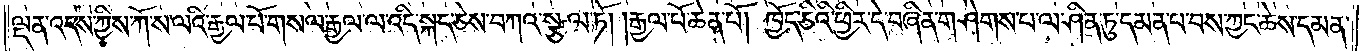ལྡན་འདས་ཀྱིས་ཀོ་ས་ལའི་རྒྱལ་པོ་གསལ་རྒྱལ་ལ་འདི་སྐད་ཅེས་བཀའ་སྩལ་ཏོ། །རྒྱལ་པོ་ཆེན་པོ། ཁྱོད་ཅིའི་ཕྱིར་དེ་བཞིན་གཤེགས་པ་ལ་ཤིན་ཏུ་དམན་པ་བས་ཀྱང་ཆེས་དམན་
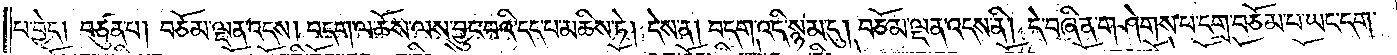པ་བྱེད། བཙུན་པ། བཅོམ་ལྡན་འདས། བདག་ལ་ཆོས་ལས་བྱུང་བའི་དད་པ་མཆིས་ཏེ། དེས་ན། བདག་འདི་སྙམ་དུ། བཅོམ་ལྡན་འདས་ནི། དེ་བཞིན་གཤེགས་པ་དགྲ་བཅོམ་པ་ཡང་དག་
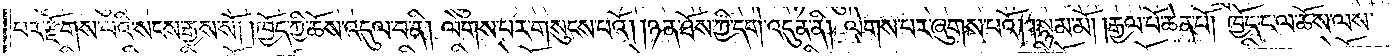པར་རྫོགས་པའི་སངས་རྒྱས་སོ། །ཁྱོད་ཀྱི་ཆོས་འདུལ་བ་ནི། ལེགས་པར་གསུངས་པའོ། །ཉན་ཐོས་ཀྱི་དགེ་འདུན་ནི། ལེགས་པར་ཞུགས་པའོ། །སྙམ་མོ། །རྒྱལ་པོ་ཆེན་པོ། ཁྱོད་ང་ལ་ཆོས་ལས་
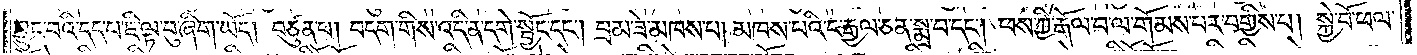བྱུང་བའི་དད་པ་ཇི་ལྟ་བུ་ཞིག་ཡོད། བཙུན་པ། བདག་གིས་འདི་ན་དགེ་སྦྱོང་དང༌། བྲམ་ཟེ་མཁས་པ། མཁས་པའི་ང་རྒྱལ་ཅན་སྨྲ་བ་དང༌། ཕས་ཀྱི་རྒོལ་བ་ལ་གོམས་པར་བགྱིས་པ། སྐྱེ་བོ་ཕལ་
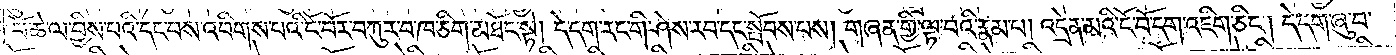པོ་ཆེ་ལ་བྱིས་པའི་དང་བས་འབིགས་པའི་ངོ་བོར་བཀུར་བ་ཁ་ཅིག་མཐོང་སྟེ། དེ་དག་རང་གི་ཤེས་རབ་དང་སྤོབས་པས། གཞན་གྱི་ལྟ་བའི་རྣམ་པ། འདྲེན་མའི་ངོ་བོ་དག་འཇིག་ཅིང༌། དེ་དག་ཞུ་བ་
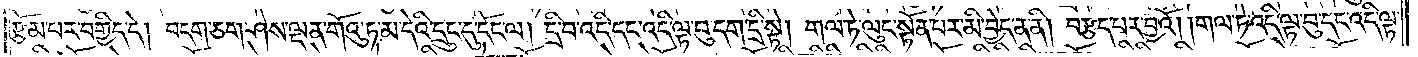རྩོམ་པར་བགྱིད་དེ། བདག་ཅག་ཤེས་ལྡན་གོའུ་ཏ་མ་དེའི་དྲུང་དུ་དོང་ལ། དྲི་བ་འདི་དང་འདི་ལྟ་བུ་དག་དྲི་སྟེ། གལ་ཏེ་ལུང་སྟོན་པར་མི་བྱེད་ན་ནི། བརྩད་པར་བྱའོ། །གལ་ཏེ་འདི་ལྟ་བུ་དང་འདི་ལྟ་
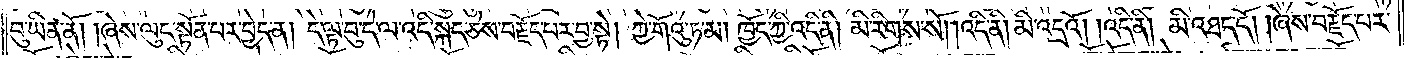བུ་ཡིན་ནོ། །ཞེས་ལུང་སྟོན་པར་བྱེད་ན། དེ་ལྟ་བུ་དེ་ལ་འདི་སྐད་ཅེས་བརྗོད་པར་བྱ་སྟེ། ཀྱེ་གོའུ་ཏ་མ། ཁྱོད་ཀྱི་འདི་ནི། མི་རིགས་སོ། །འདི་ནི། མི་འདྲའོ། །འདི་ནི། མི་འཐད་དོ། །ཞེས་བརྗོད་པར་
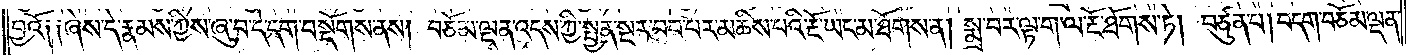བྱའོ༑ ༑ཞེས་དེ་རྣམས་ཀྱིས་ཞུ་བ་དེ་དག་བསྡོགས་ནས། བཅོམ་ལྡན་འདས་ཀྱི་སྤྱན་སྔར་བབ་པར་མཆིས་པའི་རྔོ་ཡང་མ་ཐོགས་ན། སྨྲ་བར་ལྟ་ག་ལ་རྔོ་ཐོགས་ཏེ། བཙུན་པ། བདག་བཅོམ་ལྡན་
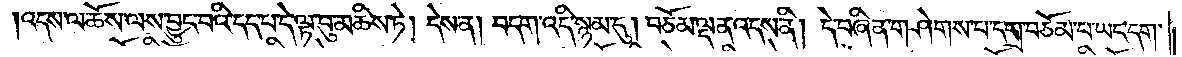འདས་ལ་ཆོས་ལས་བྱུང་བའི་དད་པ་དེ་ལྟ་བུ་མཆིས་ཏེ། དེས་ན། བདག་འདི་སྙམ་དུ། བཅོམ་ལྡན་འདས་ནི། དེ་བཞིན་གཤེགས་པ་དགྲ་བཅོམ་པ་ཡང་དག་
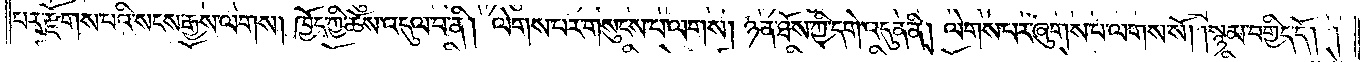པར་རྫོགས་པའི་སངས་རྒྱས་ལགས། ཁྱོད་ཀྱི་ཆོས་འདུལ་བ་ནི། ལེགས་པར་གསུངས་པ་ལགས། ཉན་ཐོས་ཀྱི་དགེ་འདུན་ནི། ལེགས་པར་ཞུགས་པ་ལགས་སོ། །སྙམ་བགྱིད་དོ། །
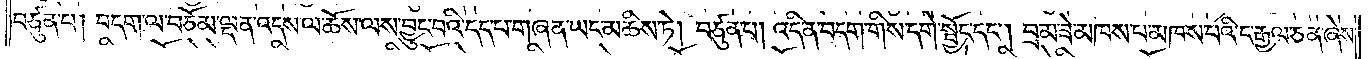བཙུན་པ། བདག་ལ་བཅོམ་ལྡན་འདས་ལ་ཆོས་ལས་བྱུང་བའི་དད་པ་གཞན་ཡང་མཆིས་ཏེ། བཙུན་པ། འདི་ན་བདག་གིས་དགེ་སྦྱོང་དང༌། བྲམ་ཟེ་མཁས་པ་མཁས་པའི་ང་རྒྱལ་ཅན་ཞེས་
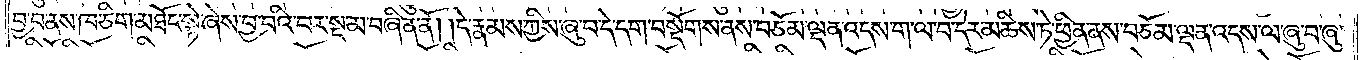བྱ་བ་ནས་ཁ་ཅིག་མཐོང་སྟེ་ཞེས་བྱ་བའི་བར་སྔ་མ་བཞིན་ནོ། །དེ་རྣམས་ཀྱིས་ཞུ་བ་དེ་དག་བསྡོགས་ནས་བཅོམ་ལྡན་འདས་ག་ལ་བ་དེར་མཆིས་ཏེ་ཕྱིན་ནས་བཅོམ་ལྡན་འདས་ལ་ཞུ་བ་ཞུ་
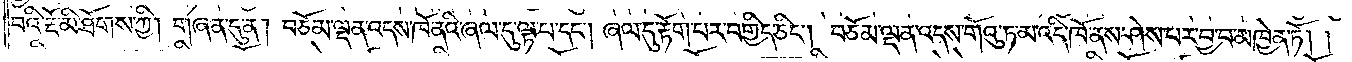བའི་རྔོ་མི་ཐོགས་ཀྱི། གཞན་དུ་ན། བཅོམ་ལྡན་འདས་ཁོ་ནའི་ཞལ་དུ་ལྟ་པ་དང༌། ཞལ་དུ་རྟོག་པར་བགྱིད་ཅིང༌། བཅོམ་ལྡན་འདས་གོའུ་ཏ་མ་འདི་ཁོ་ནས་ཤེས་པར་བྱ་བ་མཁྱེན་ཏོ། །
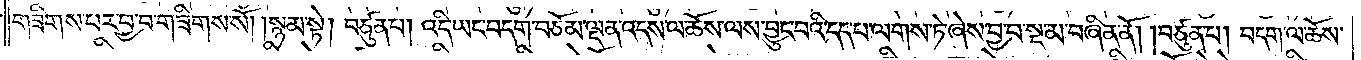གཟིགས་པར་བྱ་བ་གཟིགས་སོ། །སྙམ་སྟེ། བཙུན་པ། འདི་ཡང་བདག་བཅོམ་ལྡན་འདས་ལ་ཆོས་ལས་བྱུང་བའི་དད་པ་ལགས་ཏེ་ཞེས་བྱ་བ་སྔ་མ་བཞིན་ནོ། །བཙུན་པ། བདག་ལ་ཆོས་
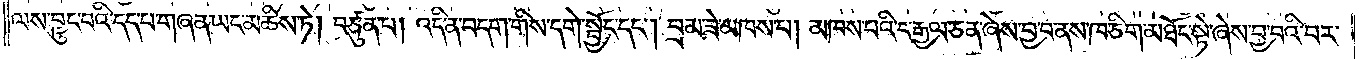ལས་བྱུང་བའི་དད་པ་གཞན་ཡང་མཆིས་ཏེ། བཙུན་པ། འདི་ན་བདག་གིས་དགེ་སྦྱོང་དང༌། བྲམ་ཟེ་མཁས་པ། མཁས་པའི་ང་རྒྱལ་ཅན་ཞེས་བྱ་བ་ནས་ཁ་ཅིག་མཐོང་སྟེ་ཞེས་བྱ་བའི་བར་
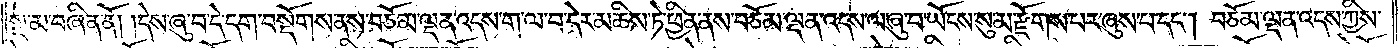སྔ་མ་བཞིན་ནོ། །དེས་ཞུ་བ་དེ་དག་བསྡོགས་ནས་བཅོམ་ལྡན་འདས་ག་ལ་བ་དེར་མཆིས་ཏེ་ཕྱིན་ནས་བཅོམ་ལྡན་འདས་ལ་ཞུ་བ་ཡོངས་སུ་མ་རྫོགས་པར་ཞུས་པ་དང༌། བཅོམ་ལྡན་འདས་ཀྱིས་
